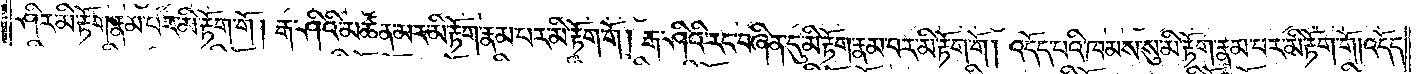ཤིར་མི་རྟོག་རྣམ་པར་མི་རྟོག་གོ །རྒ་ཤིའི་མཚན་མར་མི་རྟོག་རྣམ་པར་མི་རྟོག་གོ །རྒ་ཤིའི་རང་བཞིན་དུ་མི་རྟོག་རྣམ་པར་མི་རྟོག་གོ །འདོད་པའི་ཁམས་སུ་མི་རྟོག་རྣམ་པར་མི་རྟོག་གོ །འདོད་
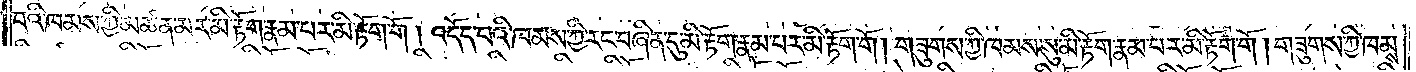པའི་ཁམས་ཀྱི་མཚན་མར་མི་རྟོག་རྣམ་པར་མི་རྟོག་གོ །འདོད་པའི་ཁམས་ཀྱི་རང་བཞིན་དུ་མི་རྟོག་རྣམ་པར་མི་རྟོག་གོ །གཟུགས་ཀྱི་ཁམས་སུ་མི་རྟོག་རྣམ་པར་མི་རྟོག་གོ །གཟུགས་ཀྱི་ཁམས་
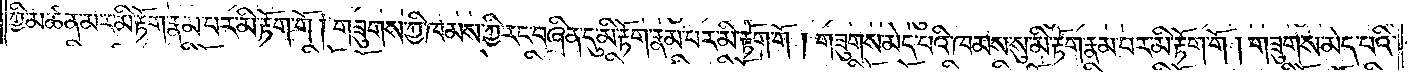ཀྱི་མཚན་མར་མི་རྟོག་རྣམ་པར་མི་རྟོག་གོ །གཟུགས་ཀྱི་ཁམས་ཀྱི་རང་བཞིན་དུ་མི་རྟོག་རྣམ་པར་མི་རྟོག་གོ །གཟུགས་མེད་པའི་ཁམས་སུ་མི་རྟོག་རྣམ་པར་མི་རྟོག་གོ །གཟུགས་མེད་པའི་
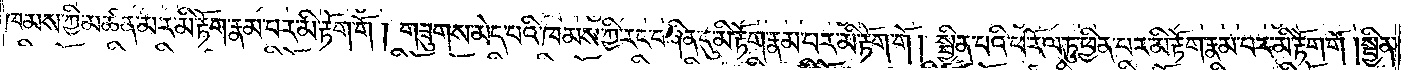ཁམས་ཀྱི་མཚན་མར་མི་རྟོག་རྣམ་པར་མི་རྟོག་གོ །གཟུགས་མེད་པའི་ཁམས་ཀྱི་རང་བཞིན་དུ་མི་རྟོག་རྣམ་པར་མི་རྟོག་གོ །སྦྱིན་པའི་ཕ་རོལ་ཏུ་ཕྱིན་པར་མི་རྟོག་རྣམ་པར་མི་རྟོག་གོ །སྦྱིན་
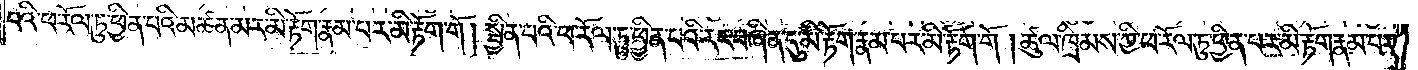པའི་ཕ་རོལ་ཏུ་ཕྱིན་པའི་མཚན་མར་མི་རྟོག་རྣམ་པར་མི་རྟོག་གོ །སྦྱིན་པའི་ཕ་རོལ་ཏུ་ཕྱིན་པའི་རང་བཞིན་དུ་མི་རྟོག་རྣམ་པར་མི་རྟོག་གོ །ཚུལ་ཁྲིམས་ཀྱི་ཕ་རོལ་ཏུ་ཕྱིན་པར་མི་རྟོག་རྣམ་པར་
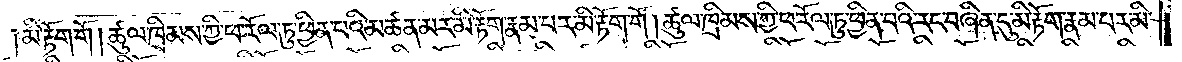མི་རྟོག་གོ །ཚུལ་ཁྲིམས་ཀྱི་ཕ་རོལ་ཏུ་ཕྱིན་པའི་མཚན་མར་མི་རྟོག་རྣམ་པར་མི་རྟོག་གོ །ཚུལ་ཁྲིམས་ཀྱི་ཕ་རོལ་ཏུ་ཕྱིན་པའི་རང་བཞིན་དུ་མི་རྟོག་རྣམ་པར་མི་
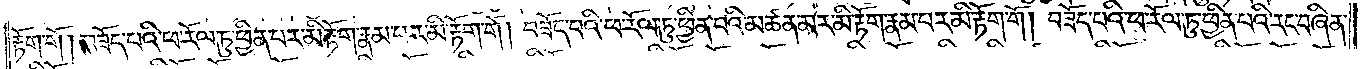རྟོག་གོ །བཟོད་པའི་ཕ་རོལ་ཏུ་ཕྱིན་པར་མི་རྟོག་རྣམ་པར་མི་རྟོག་གོ །བཟོད་པའི་ཕ་རོལ་ཏུ་ཕྱིན་པའི་མཚན་མར་མི་རྟོག་རྣམ་པར་མི་རྟོག་གོ །བཟོད་པའི་ཕ་རོལ་ཏུ་ཕྱིན་པའི་རང་བཞིན་
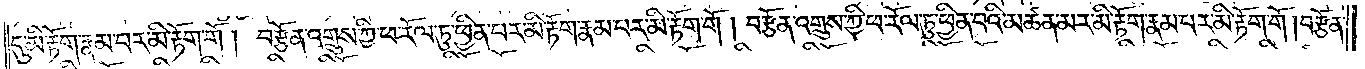དུ་མི་རྟོག་རྣམ་པར་མི་རྟོག་གོ །བརྩོན་འགྲུས་ཀྱི་ཕ་རོལ་ཏུ་ཕྱིན་པར་མི་རྟོག་རྣམ་པར་མི་རྟོག་གོ །བརྩོན་འགྲུས་ཀྱི་ཕ་རོལ་ཏུ་ཕྱིན་པའི་མཚན་མར་མི་རྟོག་རྣམ་པར་མི་རྟོག་གོ །བརྩོན་
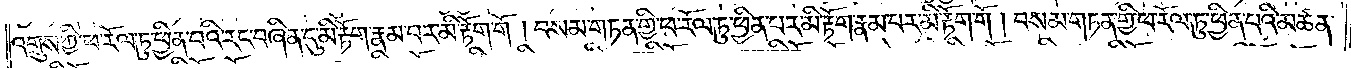འགྲུས་ཀྱི་ཕ་རོལ་ཏུ་ཕྱིན་པའི་རང་བཞིན་དུ་མི་རྟོག་རྣམ་པར་མི་རྟོག་གོ །བསམ་གཏན་གྱི་ཕ་རོལ་ཏུ་ཕྱིན་པར་མི་རྟོག་རྣམ་པར་མི་རྟོག་གོ །བསམ་གཏན་གྱི་ཕ་རོལ་ཏུ་ཕྱིན་པའི་མཚན་
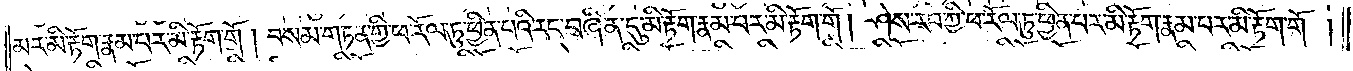མར་མི་རྟོག་རྣམ་པར་མི་རྟོག་གོ །བསམ་གཏན་གྱི་ཕ་རོལ་ཏུ་ཕྱིན་པའི་རང་བཞིན་དུ་མི་རྟོག་རྣམ་པར་མི་རྟོག་གོ །ཤེས་རབ་ཀྱི་ཕ་རོལ་ཏུ་ཕྱིན་པར་མི་རྟོག་རྣམ་པར་མི་རྟོག་གོ།
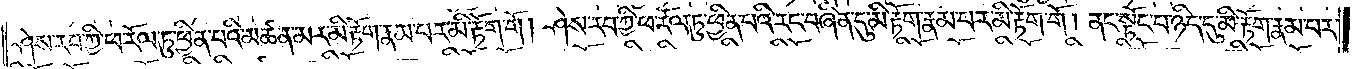ཤེས་རབ་ཀྱི་ཕ་རོལ་ཏུ་ཕྱིན་པའི་མཚན་མར་མི་རྟོག་རྣམ་པར་མི་རྟོག་གོ །ཤེས་རབ་ཀྱི་ཕ་རོལ་ཏུ་ཕྱིན་པའི་རང་བཞིན་དུ་མི་རྟོག་རྣམ་པར་མི་རྟོག་གོ །ནང་སྟོང་པ་ཉིད་དུ་མི་རྟོག་རྣམ་པར་
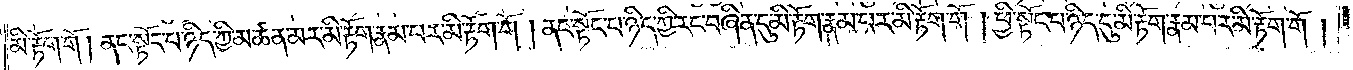མི་རྟོག་གོ །ནང་སྟོང་པ་ཉིད་ཀྱི་མཚན་མར་མི་རྟོག་རྣམ་པར་མི་རྟོག་གོ །ནང་སྟོང་པ་ཉིད་ཀྱི་རང་བཞིན་དུ་མི་རྟོག་རྣམ་པར་མི་རྟོག་གོ །ཕྱི་སྟོང་པ་ཉིད་དུ་མི་རྟོག་རྣམ་པར་མི་རྟོག་གོ།
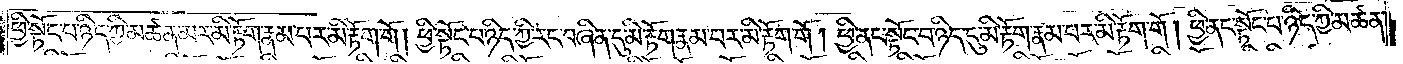ཕྱི་སྟོང་པ་ཉིད་ཀྱི་མཚན་མར་མི་རྟོག་རྣམ་པར་མི་རྟོག་གོ །ཕྱི་སྟོང་པ་ཉིད་ཀྱི་རང་བཞིན་དུ་མི་རྟོག་རྣམ་པར་མི་རྟོག་གོ །ཕྱི་ནང་སྟོང་པ་ཉིད་དུ་མི་རྟོག་རྣམ་པར་མི་རྟོག་གོ །ཕྱི་ནང་སྟོང་པ་ཉིད་ཀྱི་མཚན་
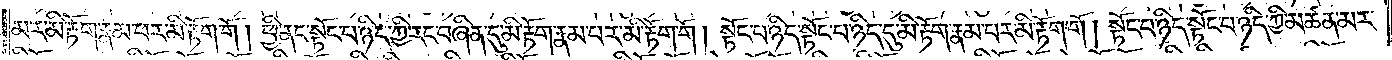མར་མི་རྟོག་རྣམ་པར་མི་རྟོག་གོ །ཕྱི་ནང་སྟོང་པ་ཉིད་ཀྱི་རང་བཞིན་དུ་མི་རྟོག་རྣམ་པར་མི་རྟོག་གོ །སྟོང་པ་ཉིད་སྟོང་པ་ཉིད་དུ་མི་རྟོག་རྣམ་བར་མི་རྟོག་གོ །སྟོང་པ་ཉིད་སྟོང་པ་ཉིད་ཀྱི་མཚན་མར་
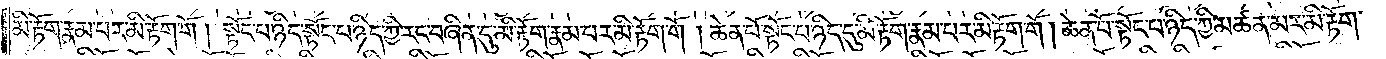མི་རྟོག་རྣམ་པར་མི་རྟོག་གོ །སྟོང་པ་ཉིད་སྟོང་པ་ཉིད་ཀྱི་རང་བཞིན་དུ་མི་རྟོག་རྣམ་པར་མི་རྟོག་གོ །ཆེན་པོ་སྟོང་པ་ཉིད་དུ་མི་རྟོག་རྣམ་པར་མི་རྟོག་གོ །ཆེན་པོ་སྟོང་པ་ཉིད་ཀྱི་མཚན་མར་མི་རྟོག་
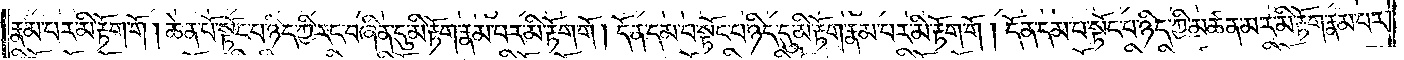རྣམ་པར་མི་རྟོག་གོ །ཆེན་པོ་སྟོང་པ་ཉིད་ཀྱི་རང་བཞིན་དུ་མི་རྟོག་རྣམ་པར་མི་རྟོག་གོ །དོན་དམ་པ་སྟོང་པ་ཉིད་དུ་མི་རྟོག་རྣམ་པར་མི་རྟོག་གོ །དོན་དམ་པ་སྟོང་པ་ཉིད་ཀྱི་མཚན་མར་མི་རྟོག་རྣམ་པར་
